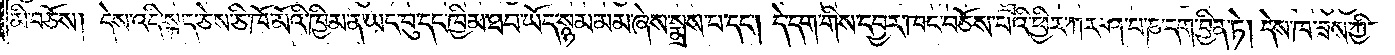མི་བཅོས། དེས་འདི་སྐད་ཅེས་ཅི་ཁོ་མོའི་ཁྱིམ་ན་ཡང་བུ་དང་ཁྱིམ་ཐབ་ཡོད་སྙམ་མམ་ཞེས་སྨྲས་པ་དང༌། དེ་དག་གིས་དབྱར་ཁང་བཅོས་པའི་ཕྱིར་ཀར་ཤ་པ་ཎ་དག་བྱིན་ཏེ། དེས་ཁ་ཟས་ཀྱི་
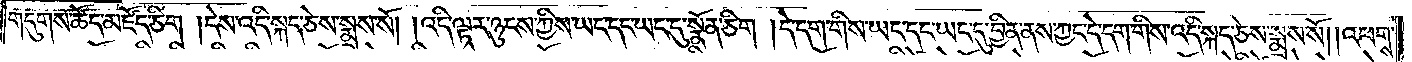གདུགས་ཚོད་མཛོད་ཅིག །དེས་འདི་སྐད་ཅེས་སྨྲས་སོ། །འདི་ལྟར་ཉུངས་ཀྱིས་ཡང་དང་ཡང་དུ་སྣོན་ཅིག །དེ་དག་གིས་ཡང་དང་ཡང་དུ་བྱིན་ནས་ཀྱང་དེ་དག་གིས་འདི་སྐད་ཅེས་སྨྲས་སོ། །འཕགས་
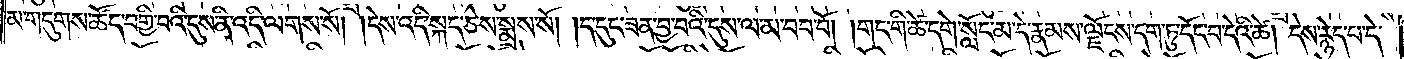མ་གདུགས་ཚོད་བགྱི་བའི་དུས་ནི་འདི་ལགས་སོ། །དེས་འདི་སྐད་ཅེས་སྨྲས་སོ། །ད་དུང་ཟན་བྱ་བའི་དུས་ལ་མ་བབ་བོ། །གང་གི་ཚེ་དགེ་སློང་མ་དེ་རྣམས་ལྗོངས་དག་ཏུ་དོང་བ་དེའི་ཚེ། དེས་རྙེད་པ་དེ་
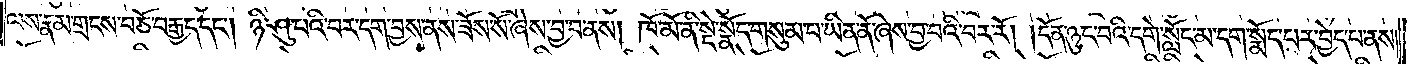ལས་རྣམ་གྲངས་བཅོ་བརྒྱད་དང༌། ཉི་ཤུ་པའི་བར་དག་བྱས་ནས་ཟོས་སོ་ཞེས་བྱ་བ་ནས། ཁོ་མོ་ནི་སྡེ་སྣོད་གསུམ་པ་ཡིན་ནོ་ཞེས་བྱ་བའི་བར་རོ། །དོན་ཉུང་བའི་དགེ་སློང་མ་དག་སྨོད་པར་བྱེད་པ་ནས།
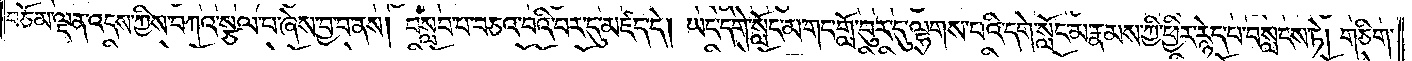བཅོམ་ལྡན་འདས་ཀྱིས་བཀའ་སྩལ་བ་ཞེས་བྱ་བ་ནས། བསླབ་པ་བཅའ་བའི་བར་དུ་མཛད་དེ། ཡང་དགེ་སློང་མ་གང་གློ་བུར་དུ་ལྷགས་པའི་དགེ་སློང་མ་རྣམས་ཀྱི་ཕྱིར་རྙེད་པ་བསླངས་ཏེ། གཅིག་
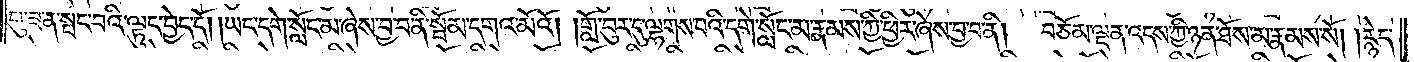པུ་ཟ་ན་སྤང་བའི་ལྟུང་བྱེད་དོ། །ཡང་དགེ་སློང་མ་ཞེས་བྱ་བ་ནི་སྦོམ་དགའ་མོའོ། །གློ་བུར་དུ་ལྷགས་པའི་དགེ་སློང་མ་རྣམས་ཀྱི་ཕྱིར་ཞེས་བྱ་བ་ནི། བཅོམ་ལྡན་འདས་ཀྱི་ཉན་ཐོས་མ་རྣམས་སོ། །རྙེད་
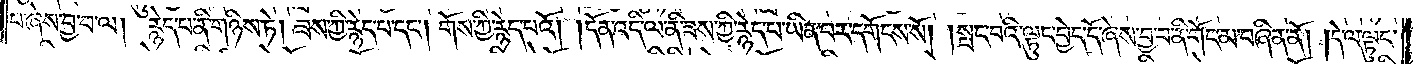པ་ཞེས་བྱ་བ་ལ། རྙེད་པ་ནི་གཉིས་ཏེ། ཟས་ཀྱི་རྙེད་པ་དང༌། གོས་ཀྱི་རྙེད་པའོ། །དོན་འདི་ལ་ནི་ཟས་ཀྱི་རྙེད་པ་ཡིན་པར་དགོངས་སོ། །སྦང་བའི་ལྟུང་བྱེད་དོ་ཞེས་བྱ་བ་ནི་གོང་མ་བཞིན་ནོ། །དེ་ལ་ལྟུང་
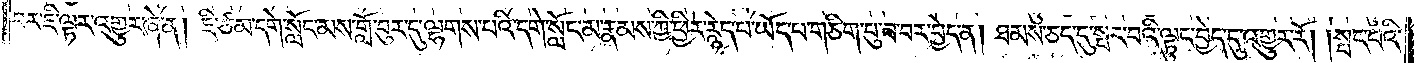བར་ཇི་ལྟར་འགྱུར་ཞེ་ན། ཇི་ཙམ་དགེ་སློང་མས་གློ་བུར་དུ་ལྷགས་པའི་དགེ་སློང་མ་རྣམས་ཀྱི་ཕྱིར་རྙེད་པ་ཡོད་པ་གཅིག་པུ་ཟ་བར་བྱེད་ན། ཐམས་ཅད་དུ་སྤང་བའི་ལྟུང་བྱེད་དུ་འགྱུར་རོ། །སྤང་པའི་
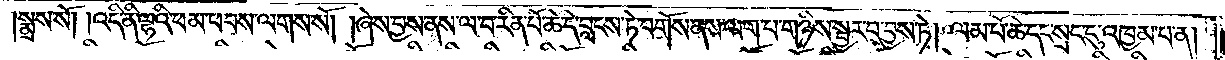སྨྲས་སོ། །འདི་ནི་ལྷའི་ཕམ་ཕབས་ལགས་སོ། །ཞེས་བྱས་ནས་ལ་བ་རིན་པོ་ཆེ་དེ་བླངས་ཏེ་བགོས་ནས་ལག་པ་གཉིས་སྦྱར་བ་བྱས་ཏེ། ལམ་པོ་ཆེ་དང་སྲང་དུ་འཁྱམ་པ་ན།
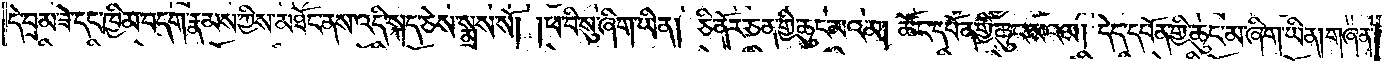དེ་བྲམ་ཟེ་དང་ཁྱིམ་བདག་རྣམས་ཀྱིས་མཐོང་ནས་འདི་སྐད་ཅེས་སྨྲས་སོ། །ཕ་བི་སུ་ཞིག་ཡིན། ཅི་ནོར་ཅན་གྱི་ཆུར་མའམ། ཚོང་དཔོན་གྱི་ཆུང་མའམ། དེད་དཔོན་གྱི་ཆུང་མ་ཞིག་ཡིན། གཞན་
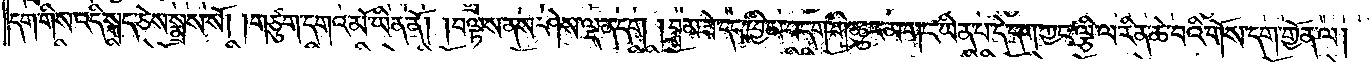དག་གིས་འདི་སྐད་ཅེས་སྨྲས་སོ། །གཙུག་དགའ་མོ་ཡིན་ནོ། །བལྟས་ནས་ཤེས་ལྡན་དག །བྲམ་ཟེ་དང་ཁྱིམ་བདག་གི་ཆུང་མ་གང་ཡིན་པ་དེ་དག་ཀྱང་ལྕི་ལ་རིན་ཆེ་བའི་གོས་དག་གྱོན་ལ།
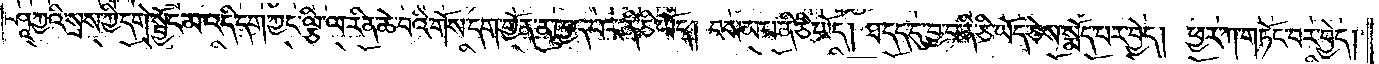ཤཱཀྱའི་སྲས་ཀྱི་དགེ་སྦྱོང་མ་འདི་དག་ཀྱང་ལྕི་ལ་རིན་ཆེ་བའི་གོས་དག་གྱོན་ན་ཁྱད་པར་ནི་ཅི་ཡོད། བསམ་པ་ནི་ཅི་ཡོད། ཐ་དད་དུ་བྱ་བ་ནི་ཅི་ཡོད་ཅེས་སྨོད་པར་བྱེད། ཕྱར་ཀ་གཏོང་བར་བྱེད།
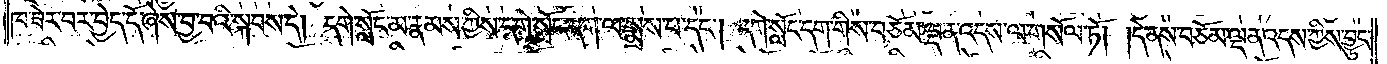ཁ་ཟེར་བར་བྱེད་དོ་ཞེས་བྱ་བའི་སྐབས་དེ། དགེ་སློང་མ་རྣམས་ཀྱིས་དགེ་སློང་དག་ལ་སྨྲས་པ་དང༌། དགེ་སློང་དག་གིས་བཅོམ་ལྡན་འདས་ལ་གསོལ་ཏོ། །དེ་ནས་བཅོམ་ལྡན་འདས་ཀྱིས་བྱུང་
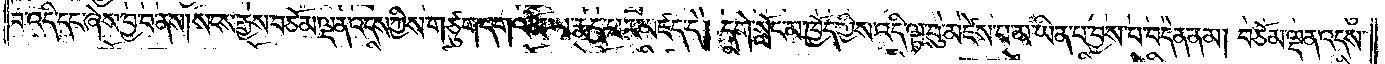བ་འདི་དང་ཞེས་བྱ་བ་ནས།སངས་རྒྱས་བཅོམ་ལྡན་འདས་ཀྱིས་གཙུག་དགའ་མོ་ལ་རྨད་པར་མཛད་དེ། དགེ་སློང་མ་ཁྱོད་ཀྱིས་འདི་ལྟ་བུ་མཛེས་པ་མ་ཡིན་པ་བྱས་པ་བདེན་ནམ། བཅོམ་ལྡན་འདས་
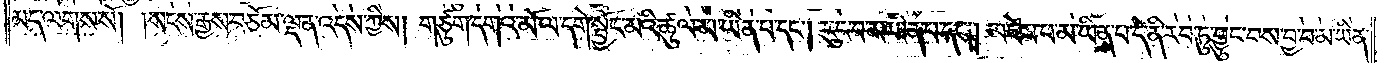མད་ལགས་སོ། །སངས་རྒྱས་བཅོམ་ལྡན་འདས་ཀྱིས། གཙུག་དགའ་མོ་ལ་དགེ་སྦྱོང་མའི་ཚུལ་མ་ཡིན་པ་དང༌། རུང་བ་མ་ཡིན་པ་དང༌། མཛེས་པ་མ་ཡིན་པ་དེ་ནི་རབ་ཏུ་བྱུང་བས་བྱ་བ་མ་ཡིན་
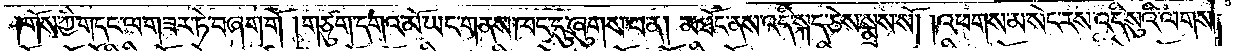གོས་ཀྱི་གདང་ལ་གཟར་ཏེ་བཞག་གོ །གཙུག་དགའ་མོ་ཡང་གནས་ཁང་དུ་ཞུགས་པ་ན། མཐོང་ནས་འདི་སྐད་ཅེས་སྨྲས་སོ། །འཕགས་མ་སེང་རས་འདི་སུའི་ལགས་
